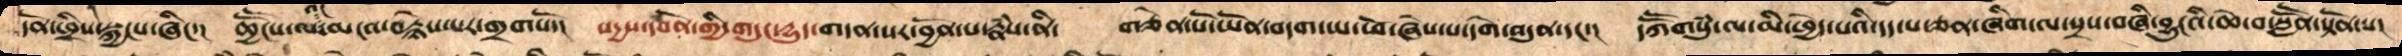དོན་ཕྲིས་སྐྱངས་ཞིང་། ཆྱཽངས་ལའང་མངའ་བརྙེས་པར་གྲགསོ། སདྱས་དབོན་གྱི་གདུང་དྱུད་གདན་སར་བྱོན་པ་རྣཾས་ནི། གཅེན་པོ་ཡོན་བདག་ཡ་ཕོ་ཞེས་པ་དགེ་འདུན་དང་། དཀཽགསུཾ་ལ་མི་ཕྱེད་པའི་དད་པ་ཅན་ཞིག་ལ་སྲས་བཞི་བྱུངའི་ཆེ་བ་སླཽན་སྟོན་པ།
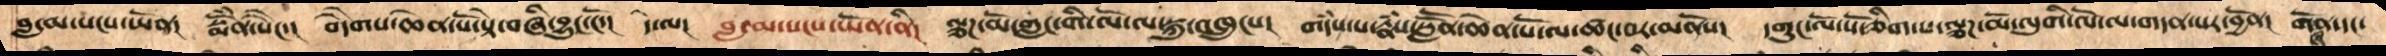བླ་མ་སངས་ཡོན། སྨོནཾ་སེངེ་།   བདཻགས་ཆེན་པོ་སྟེ་བཞི་བྱུང་ངོ་།  དེ་ལ། བླ་མ་སངས་ཡོན་ནི། ལྕཌ་མོ་གླང་གི་ལོ་ལ་སྐུ་འཁྲུངས། གདཾས་པ་རྣཾས་སླཽན་ཆེན་པོ་ལ་ཚང་བར་མནོས། དགུང་ལོ་སོ་ཅིག་པ་ལྕཌ་མོ་ལུགི་ལོ་ལ་གདན་སར་བྱོན། གཞོན་དང་
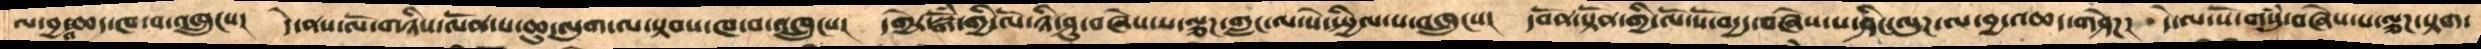ལ་བྱ་འཆད་ཁ་བ་འཁྲུངས། དེ་ནས་ལོ་གཉིས་ལོན་པ་ཆུ་ལུག་ལ་སྟབས་ཁ་བ་འཁྲུངས། དགྱེར་སྒོཾ་གྱི་ལོ་ཉི་ཤུ་བཞེས་པ་ལྕཌ་གླང་ལ་སེ་སྤྱིལ་པ་འཁྲུངས། དབོན་སྟོན་གྱི་ལོ་སོ་བདྱད་བཞེས་པ་ཤིང་ལུཌ་ལ་བྱ་འཆད་གཤེཌ།  དེ་ལ་སོ་གསུཾ་བཞེས་པ་ལྕཌ་སྟག་
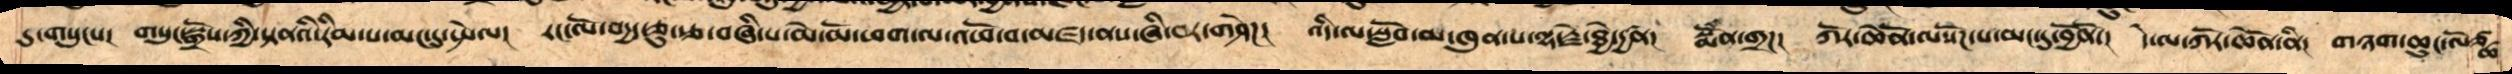དུ་གསུངས། གསུང་སྒྲོས་ཀྱི་སྟནའི་རིམ་པ་མང་དུ་སྤེལ། རང་ལོ་བདྱད་ཅུ་རྩ་བཞི་པ་མེ་མོ་ཕག་ལ་འཕོ་བ་མཛད་ནས་ཞི་བར་གཤེཌ། འདི་ལ་སློབ་མ་ཁུན་པ་ལྷ་རྗེ་ཐྱེ་དྱཚན། སྨོཾན་གྲཌ། ཀོར་ཆེནོ་ལསོཌ་པ་མང་དུ་བྱོནོ། དེ་ལ་ཀོར་ཆེནོ་ནི། གཉག་ཆུང་ལོཙྪ་
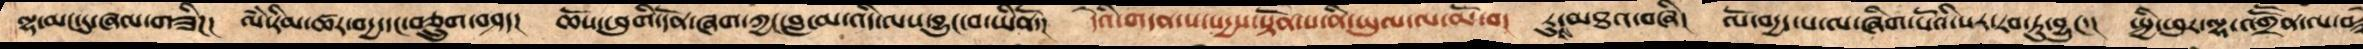ལྷ་མང་དུ་ཞལ་གཟིཌ། ལཾ་རིམ་ཚར་བདྱ་དང་བཅྲུག་བཤད། ཆོས་ཕུགི་དོན་ཞག་ཀྱང་བླ་མ་འདི་ལས་བྱུང་བ་ཡིནོ།  དེའི་གདན་ས་སདྱས་སྟོན་པ་ནི་ཡུལ་ལ་མོ་བ། རུས་མཐའ་བཞི། ལོ་བདྱད་པ་ལ་ཞིག་པོའི་སར་རབ་ཏུ་བྱུང་། སྤྱི་ཕུར་ལྷ་འགྲཽན་ལ་བ
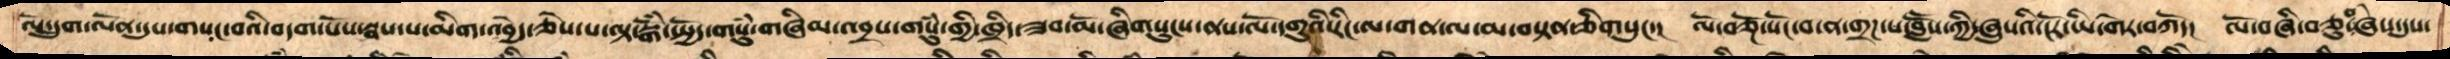ལོ་དྲུག་ལོན་དུས་གསང་བའི་བདག་པོས་སྦས་པ་མིག་འབྱེད་ཅེས་པ་ལྟ་སྒོཾ་སྤྱོད་གསུཾ་གཞིམ་འབྲས་གསུཾ་གྱི་ཁྲིད་ཟབ་མོ་ཞིགསུངས་ནས་ལོ་དགུའི་རིང་ལ་གན་ལ་མ་བསྟན་ཅིགསུང་། ལོ་བཅྔོ་སོང་བ་ན་གྲཌ་པ་བླཽས་ཀྱི་ཞུསའི་ངོར་ཡི་གེར་བཀོད། ལོ་བཞི་བཅུ་བཞེས་དུས་
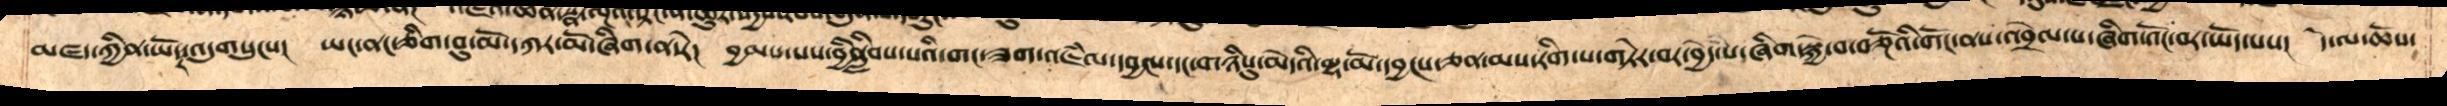མཛད་ཀྱིན་ཡོདར་འདུགསུངས། ཡང་ནང་ཅིག་བུ་མོ་དཀར་མོ་ཞིག་ན་རེ། བྱམས་པས་བྱིནླིབས་པའི་གང་ཟག་འཇཾལ་དབྱངས་དང་གཉིསུ་མེདའི་ལྷ་མོ་དབྱངས་ཅན་མས་རིག་པ་གཏེར་བར་བྱེད་པ་ཞིག་སྐྱེ་བ་བཅྔོའི་གོང་ནས་འབྲེལ་པ་ཞིག་འོང་བར་ཡོད་པས། དེ་ལ་ཆོས་
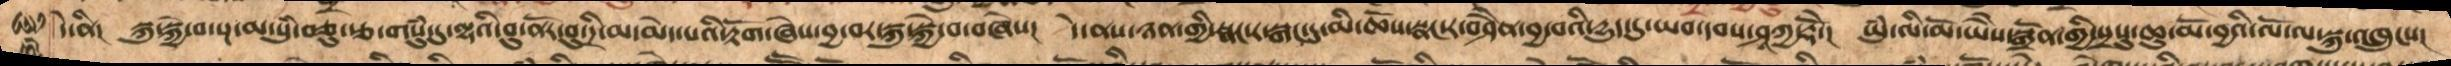དེ་ནི། སྐུ་སྐྱེ་བ་སྔ་མ་སུཾ་བཅུ་རྩ་གསུཾ་དུ་ལྷའི་བུ་ནོར་བུ་དྲི་མ་མེད་པའི་རྟོག་ཞེས་བྱ་བར་སྐུ་སྐྱེ་བ་བཞེས། དེ་ནས་ཉན་གྱི་སྣང་ར་སྒང་དུ་མི་ཆོས་སྣང་ར་བཤཻན་བྱ་བའི་དྱུད་དུ་ཡབ་དབས་ཤཱཀྱ་རྡོེ་དང་། ཡུཾ་ལི་མོ་ཡཻས་སྒྲོན་གྱི་སྲསུ་ཆུ་མོ་བྱའི་ལོ་ལ་སྐུ་འཁྲུངས།
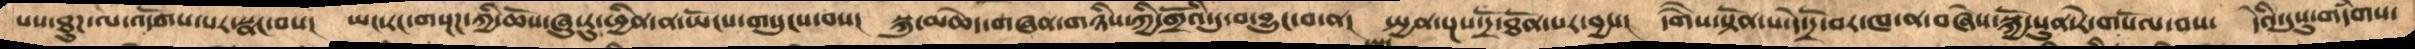པས་ཐུཌ་ལ་འདོགས་པར་སྣང་བས། ཡང་རང་གསྔཌ་ཀྱི་ཆོས་ཞུས་རུ་ཕྱིན་ན་ཡོངས་གསུངས་བས། སྐུ་མཆེད་གཞན་གཉིས་ཀྱི་གྲོའི་དུ་བ་བྱུང་བ་ན། སྤྱན་སྔས་དྲོ་ཐོན་པར་བྱས། དགཻས་སྟོན་པ་དེ་དྲོ་བར་ཁ་ན་བཞེས་སྐྱོ་སུན་རེ་གསོལ་བས་ དེའི་དུསུ་གདཾགས
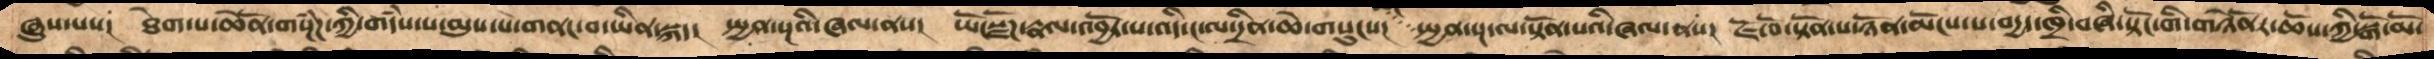ཞུས་པས། ཐེག་པ་ཆེནོ་གསྔཾཌ་ཀྱི་གདཾས་པ་མ་ལུས་པ་གནང་བ་ཡིན་སྐད། སྤྱན་སྔའི་ཞལ་ནས། ཡོངསྫོཌ་རྣལ་འབྱོར་པ་འདི་ང་ལ་དྲིན་ཆེ་གསུངས། སྤྱན་སྔ་ལ་སྟོན་པའི་ཞལ་ནས། ཇོ་བོ་སྟོན་པ་ཉོན་མོངས་པ་བདྱད་ཁྲི་བཞི་སྟོང་གི་གཉེནོར་ཆོས་ཀྱི་སྒོ་མོ་
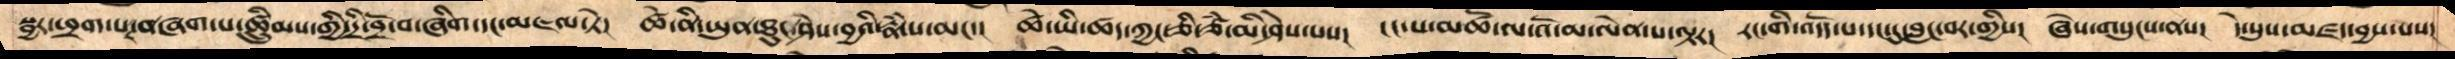སྦྱར་ཕྲག་པར་བཞག་པ་ཚྲིུམས་ཀྱི་དྲི་བྲོ་བ་ཞིག་དང་མཇལ་ཏེ། ཚེ་ནི་ཡུན་ཐུང་ཤེས་བྱའི་རྣཾ་པ་མང་། ཚེ་ཡི་ཚད་ཀྱང་ཇི་ཙཾ་མི་ཤེས་པས། ངང་པ་མཚོ་ལ་འོ་མ་ལེན་པ་ལྟར། རང་གི་འདོད་པ་དང་དུ་བླང་བར་གྱིས།  ཞེས་གསུངས་ནས། དེ་སུས་མཛད་བྱས་པས།
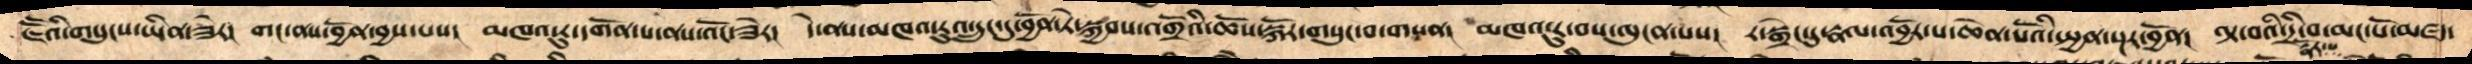ཇཽའི་གསུངས་ཡིན་ཟེར། གང་ནས་བྱོན་བྱས་པས། མཁའ་རུ་དགོན་པ་ནས་འོང་ཟེར། དེ་ནས་མཁའ་རུའ་དྲུང་དུ་བྱོན་ཏེ་སྐྱབས་འགྲོའི་ཆོས་སྐོར་གསུང་བ་གསན། མཁའ་རུ་བས་ལུངན་པས། ར་སྒྲེང་དུ་རྣལ་འབྱོར་པ་ཆེན་པོའི་སྤྱན་སྔར་བྱོན། ལྟ་བའི་དྲི་བ་མང་པོ་མཛད་
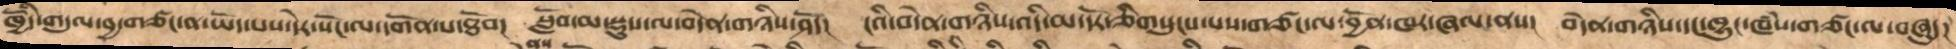ཁྱོདི་གདུལ་བྱ་གཙང་ན་ཡོད་པས་དེར་སོང་ལ་དགོན་པ་ཐོབ།  སློབ་མ་སྡུས་ལ་བདེན་གཉིས་ཤོད། ངའི་བདེན་གཉིས་འདི་མ་དོར་ཅིག་གསུངས་པས་གཙང་ལ་བྱོན་ཁར་ཞལ་ནས།  བདེན་གཉིས་དང་ཁྱུང་ཁཾས་གཙང་ལ་བཞུད།
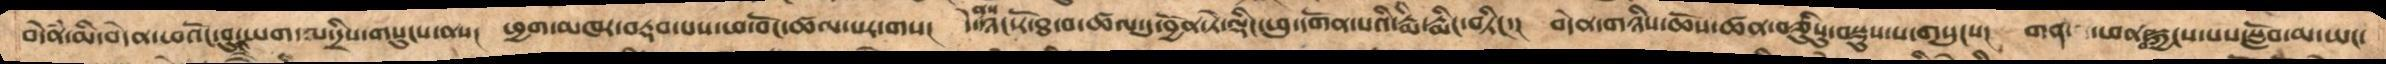བདེནཾ་མི་བདེན་ཕའོང་བུ་གཡག་ལ་དྲིས་གསུངས་ནས། ཕྱག་མཁར་བརྡབ་པས་ཕ་བོང་ཚལ་པར་གས།  དེ་ནས་ཉང་རོ་ཐ་བ་ཚལ་དུ་བྱོན་ཏེ་ལྡིང་ཕུ་དགོན་པའི་རྨི་རྨིང་བཏིང་། བདེན་གཉིས་ཆོས་ཚན་བཅིུསུ་བསྡུས་པ་གསུངས། གན་ཕན་བསྐྱངས་པས་སློབ་མ་ཡང་
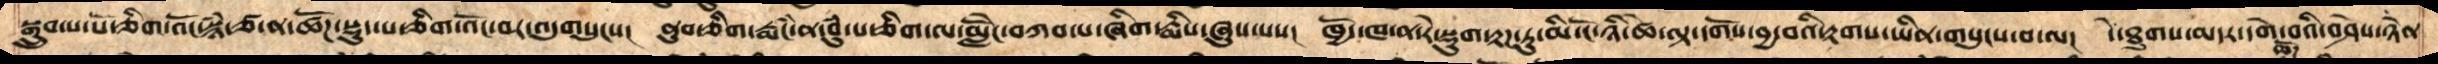སྒྲུབ་པ་པོ་ཅིག་འོང་སྙཾ་ཙ་ན་ཚོཌ་སྡུད་པ་ཅིག་འོང་བར་འདུགསུངས།  ནུབ་ཅིག་རྨཾང་ན་བུཾ་་པ་ཅིག་ལ་མླེངོ་བཀབ་པ་ཞིག་རྨིས་ཞུས་པས།  ཁྱོད་ཁ་ན་རེ་སྡུག་རྟཌ་ཏུ་མི་ངོ་ཉི་ཚེ་ལྟ་དགོས་བྱ་བའི་རྟགས་ཡིན་གསུངས་བ་ལ། དེ་ཐུགས་མདར་དགེ་བའི་བཤེས་ཉེན་
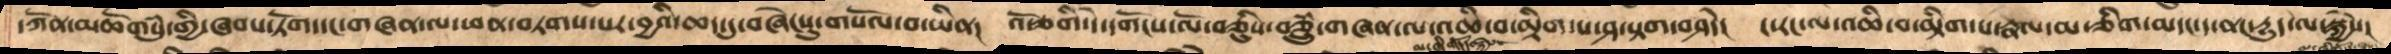དཀོན་མཆོགསུཾ་གྱི་ཞབས་ཏོག་དང་གཞན་ལ་ཕན་བཏགས་པར་བྱའི་ཆད་དུ་བཞེངསུ་གསོལ་བ་ཡིན།  འོ་ཅགི་དེ་དགོངས་ལོ་བཅིུས་བཅྲུཾ་གཞན་ལ་འཆི་བ་མྟིག་པ་ཤ་སྟག་བཤདེ།  ང་རང་ལ་འཆི་བ་མྟིག་པ་རྣལ་མ་ཅིག་མདང་ད་ནང་དྱུད་ལ་སྐྱེས།
